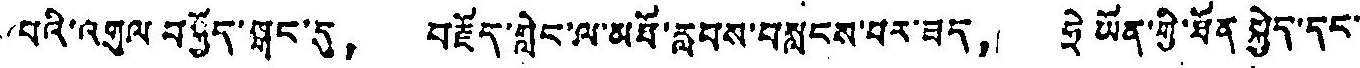པའི་འགུལ བསྐྱོད་སྒང་དུ， བརྗོད་གླེང་ལ་མཐོ་རླབས་བསླངས་པར་ཟད， ཧྲེ ཡོན་གྱི་ཐོན སྐྱེད་དང་།
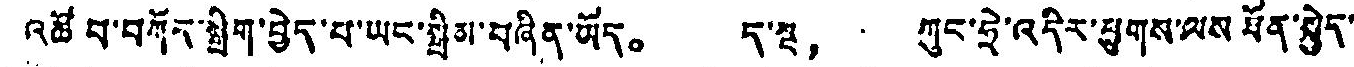འཚོ བ་བཀོད་སྒྲིག་བྱེད་པ་ཡང་སྒྲིམ་བཞིན་ཡོད。 ད་སྔ， ཀུང་ཧྲེ་འདིར་ཕྱུགས་ལས ཐོན་སྐྱེད་
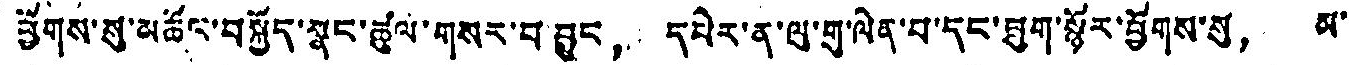ཕྱོགས་སུ་མཆོང་བསྐྱོད་སྣང་ཚུལ་གསར་བ བྱུང， དཔེར་ན་ལུ་གུ་ལེན་པ་དང་ཐུག་སྙོར་ཕྱོགས་སུ， མ་
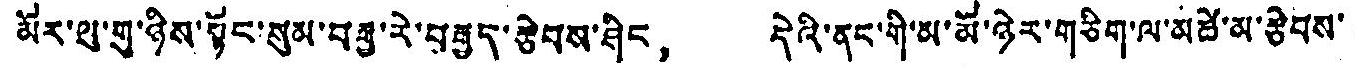མོར་ལུ་གུ་ཉིས་སྟོང་སུམ་བརྒྱ་རེ་བརྒྱད་རྩེབས་ཤིང， དེའི་ནང་གི་མ་མོ་ཉེར་གཅིག་ལ་མཚེ་མ་རྩེབས་
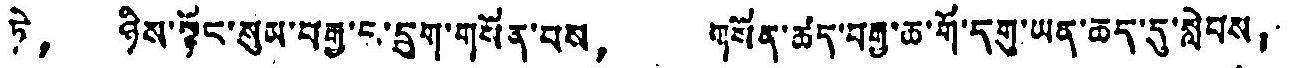ཏེ， ཉིས་སྟོང་སུམ་བརྒྱ་ང་དྲུག་གསོན་པས， གསོན་ཚད་བརྒྱ་ཆ་གོ་དགུ་ཡན་ཆད་དུ་སླེབས，
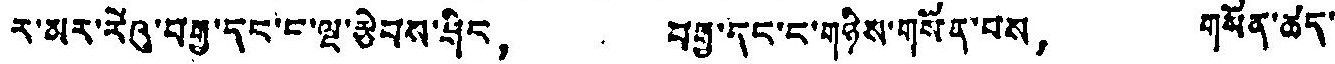ར་མར་རེའུ་བརྒྱ་དང་ང་ལྔ་རྩེབས་ཤིང， བརྒྱ་དང་ང་གཉིས་གསོན་པས， གསོན་ཚད་
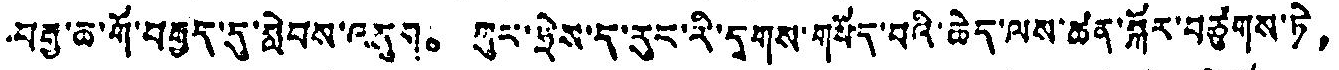བརྒྱ་ཆ་གོ་བརྒྱད་དུ་སླེབས་འདུག。 ཀུར་ཧྲེས་ད་རུང་རི་དྭགས་གསོད་པའི་ཆེད་ལས་ཚན་སྐོར་བཙུགས་ཏེ，
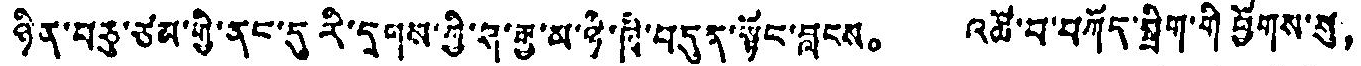ཉིན་བཅུ་ཙམ་གྱི་ནང་དུ རི་དྭགས་ཀྱི་ཤ་རྒྱ་མ་ཉི་ཁྲི་བདུན་སྟོང་བླངས。 འཚོ་བ་བཀོད་སྒྲིག་གི ཕྱོགས་སུ，
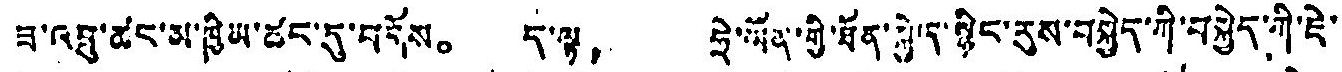ཟ་འཐུ་ཚང་མ་ཁྱིམ་ཚང་དུ་བདོས。 ད་ལྟ， ཧྲེ་ཡོན་གྱི་ཐོན་སྐྱེད་སྙིང་རུས་བསྐྱེད་ཀི་བསྐྱེད་ཀི་ཇེ་
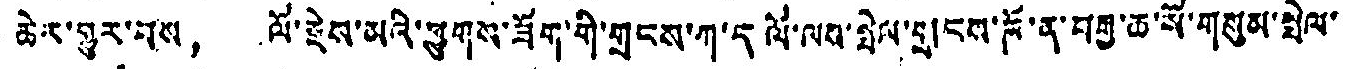ཆེར་གྱུར་བས， ལོ་རྗེས་མའི་ཕྱུགས་ཟོག་གི་གྲངས་ཀ་ད ལོ་ལས་སྤེལ་གྲ།ངས་ཁོ་ན་བརྒྱ་ཆ་སོ་གསུམ་སྤེལ་་
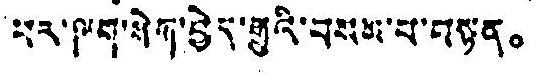པར་ལག་སེག་བྱེད་རྒྱུའི་བསམ་པ་བསྟན。
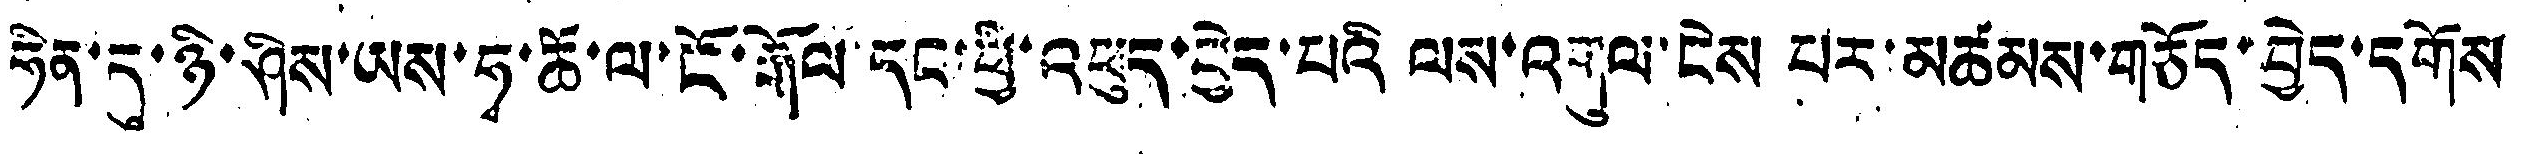ཧིན་དུ་ཉི་ཤིས་ཡས་ཧྭ་ཆོ་ལ་ངོ་རྒོལ་དང་ཕྱི་འཕུད་བྱེད་པའི ལས་འགུལ་ངེས པར་མཚམས་གཅོད་བྱེད་དགོས
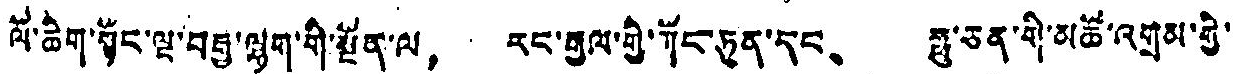ལོ་ཆིག་སྟོང་ལྔ་བརྒྱ་ལྷག་གི་སྔོན་ལ， རང་རྒྱལ་གྱི་གོང་ཏུན་དང， ཧྥུ་ཅན་གི་མཚོ་འགྲམ་གྱི་
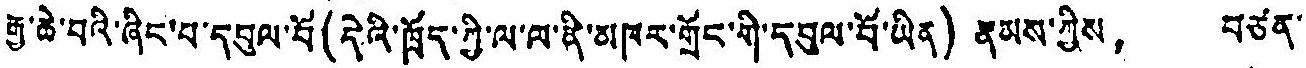རྒྱ་ཆེ་བའི་ཞིང་པ་དབུལ་བོ(དེའི་ཁྲོད་ཀྱི་ལ་ལ་ནི་མཁར་གྲོང་གི་དབུལ་བོ་ཡིན) རྣམས་ཀྱིས， བཙན་
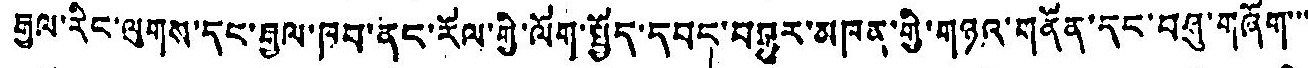རྒྱལ་རིང་ལུགས་དང་རྒྱལ་ཁབ་ནང་རོལ་གྱི་ལོག་སྤྱོད་དབང་བསྟུར་མཁན་གྱི་གཉའ་གནོན་དང་བཤུ་གཞོག་་་
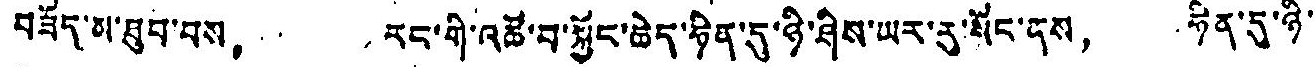བཟོད་མ་ཐུབ་པས， རང་གི་འཚོ་བ་སྐྱོང་ཆེད་ཉིན་དུ་ཉི་ཤིས་ཡར་རུ་སོང་ནས， ཧིན་དུ་ཉི་
